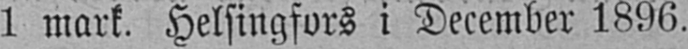1 mark, Helsingfors i December 1896.
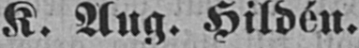K. Aug. Hildén.
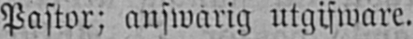Pastor; answarig utgifware.
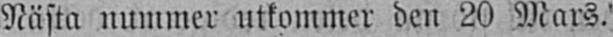Nästa nummer utkommer den 20 Mars.
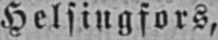Helsingfors,
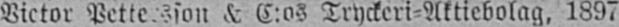Victor Pettersson & C:os Tryckeri-Aktiebolag, 1897
